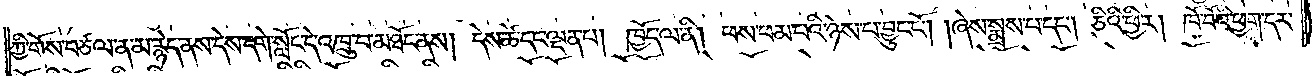ཀྱི་གོས་བཙལ་ན་མ་རྙེད་ནས་དེས་དགེ་སློང་དེ་འཁྲུ་བ་མཐོང་ནས། དེས་ཚེ་དང་ལྡན་པ། ཁྱོད་ལ་ནི། ཕས་ཕམ་པའི་ཉེས་པ་བྱུང་ངོ༌། །ཞེས་སྨྲས་པ་དང༌། ཅིའི་ཕྱིར། ཁོ་བོའི་ཕྱག་དར་
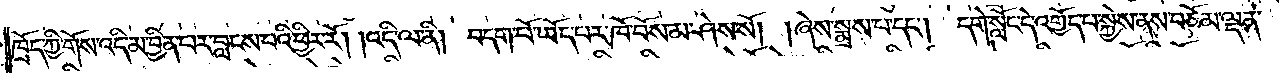ཁྲོད་ཀྱི་གོས་འདི་མ་བྱིན་པར་བླངས་པའི་ཕྱིར་རོ། །འདི་ལ་ནི། བདག་པོ་ཡོད་པར་ཁོ་བོས་མ་ཤེས་སོ། །ཞེས་སྨྲས་པ་དང༌། དགེ་སློང་དེ་འགྱོད་པ་སྐྱེས་ནས་བཅོམ་ལྡན་
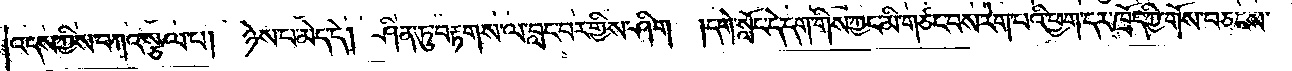འདས་ཀྱིས་བཀའ་སྩལ་པ། ཉེས་པ་མེད་དེ། ཤིན་ཏུ་བརྟགས་ལ་བླང་བར་གྱིས་ཤིག །དགེ་སློང་དེ་དག་གིས་ཀྱང་མི་གཙང་བས་རེག་པའི་ཕྱག་དར་ཁྲོད་ཀྱི་གོས་བཅངས་
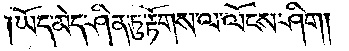ཡོད་མེད་ཤིན་ཏུ་རྟོགས་ལ་ལོངས་ཤིག།
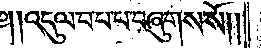༄༅༎འདུལ་བ་པ་པ་བཞུགས་སོ༎
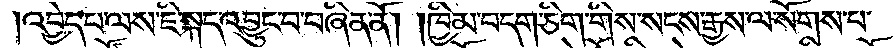འབྱེད་པ་ལས་ཇི་སྐད་འབྱུང་བ་བཞིན་ནོ། །ཁྱིམ་བདག་ཅིག་གིས་སངས་རྒྱས་ལ་སོགས་པ་
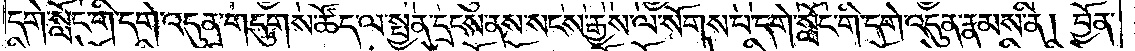དགེ་སློང་གི་དགེ་འདུན་གདུགས་ཚོད་ལ་སྤྱན་དྲངས་ནས་སངས་རྒྱས་ལ་སོགས་པ་དགེ་སློང་གི་དགེ་འདུན་རྣམས་ནི། བྱོན་
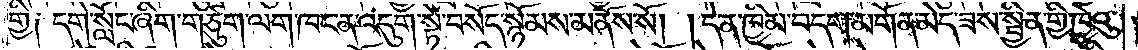གྱི༑ དགེ་སློང་ཞིག་གཙུག་ལག་ཁང་ན་འདུག་སྟེ་བསོད་སྙོམས་མནོས་སོ། །དེ་ན་ཁྱིམ་བདག་མགོན་མེད་ཟས་སྦྱིན་གྱི་ཁྱེའུ་
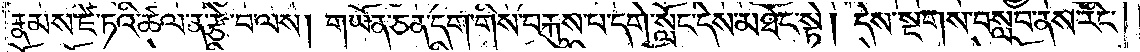རྣམས་ཛེ་ཏའི་ཚལ་ན་རྩེ་བ་ལས། གཡོན་ཅན་དག་གིས་བརྐུས་པ་དགེ་སློང་དེས་མཐོང་སྟེ། དེས་སྔགས་བསླབ་ནས་རིང་
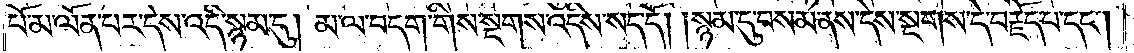པོ་མ་ལོན་པར་དེས་འདི་སྙམ་དུ། མ་ལ་བདག་གིས་སྔགས་འདིས་སད་དོ། །སྙམ་དུ་བསམ་ནས་དེས་སྔགས་དེ་བརྗོད་པ་དང༌།
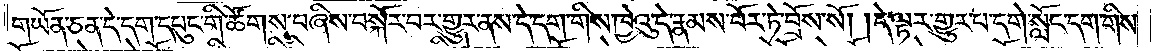གཡོན་ཅན་དེ་དག་དཔུང་གི་ཚོགས་བཞིས་བསྐོར་བར་གྱུར་ནས་དེ་དག་གིས་ཁྱེའུ་དེ་རྣམས་བོར་ཏེ་བྲོས་སོ། །དེ་ལྟར་གྱུར་པ་དགེ་སློང་དག་གིས་
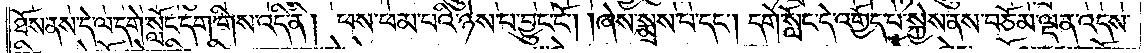ཐོས་ནས་དེ་ལ་དགེ་སློང་དག་གིས་འདི་ནི། ཕས་ཕམ་པའི་ཉེས་པ་བྱུང་ངོ༌། །ཞེས་སྨྲས་པ་དང༌། དགེ་སློང་དེ་འགྱོད་པ་སྐྱེས་ནས་བཅོམ་ལྡན་འདས་
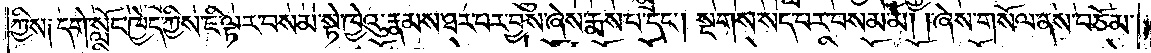ཀྱིས༑ དགེ་སློང་ཁྱེད་ཀྱིས་ཇི་ལྟར་བསམ་སྟེ་ཁྱེའུ་རྣམས་ཐར་པར་བྱས་ཞེས་རྨས་པ་དང༌། སྔགས་སད་པར་བསམ་མོ། །ཞེས་གསོལ་ནས་བཅོམ་
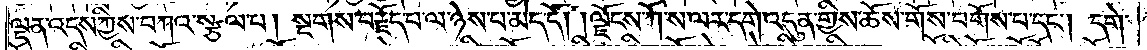ལྡན་འདས་ཀྱིས་བཀའ་སྩལ་པ། སྔགས་བརྗོད་པ་ལ་ཉེས་པ་མེད་དོ། །ལྗོངས་ཀོ་ས་ལར་དགེ་འདུན་གྱིས་ཆོས་གོས་བགོས་པ་དང༌། དགེ་
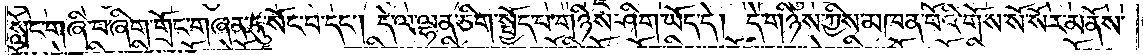སློང་གཞི་བ་ཞིག་གྲོང་གཞན་དུ་སོང་བ་དང༌། དེ་ལ་ལྷན་ཅིག་སྤྱོད་པ་གཉིས་ཤིག་ཡོད་དེ། དེ་གཉིས་ཀྱིས་མཁན་པོའི་གོས་སོ་སོར་མནོས་
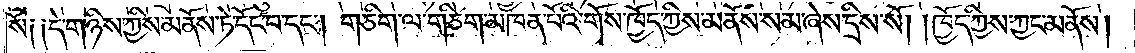སོ༑ ༑དེ་གཉིས་ཀྱིས་མནོས་ཏེ་དོང་བ་དང༌། གཅིག་ལ་གཅིག་མཁན་པོའི་གོས་ཁྱོད་ཀྱིས་མནོས་སམ་ཞེས་དྲིས་སོ། །ཁྱོད་ཀྱིས་ཀྱང་མནོས་
